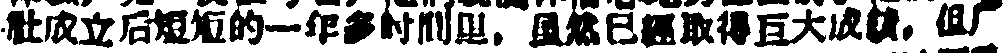社成立后短短的一年多时間里，虽然已經取得巨大成績，但广
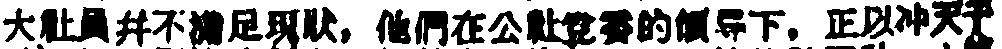大社員并不满足現状，他們在公社党委的領导下，正以冲天干
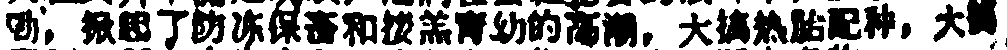勁，掀起了防冻保畜和接羔育幼的高潮，大搞热胎配种，大搞
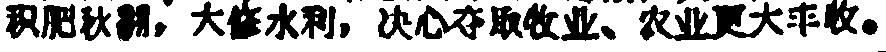积肥秋翻，大修水利，决心夺取牧业、农业更大丰收。
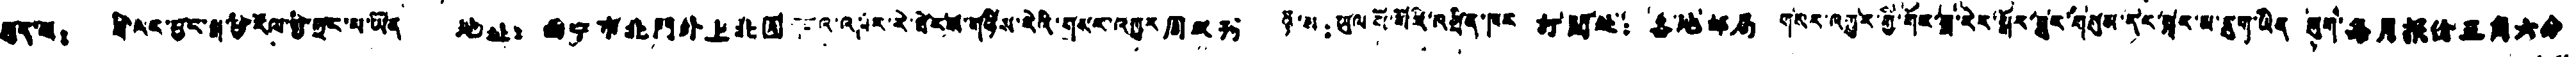ཕུད་ས： ཟི་ལིང་བྱང་སྒོ་ཕྱི་རལ་གྱི་ཧྲང་པེ་ཡོན 地址：西宁市北門外上北园 གཟའ་འཁོར་རེ་ཐེངས་གཉིས་རེའི་གསར་འགྱུར 周双刊 ཉོ་ས： ཡུལ་སོ་སོའི་འཕྲིན་ཁང 訂閱处： 各地邮局 གསར་འགྱུར་གྱི་གོང་ཟླ་རེར་སྒོར་ཟུར་གསུམ་དང་སྐར་དྲུག་ཡིན ཞུག་ 每月报价三角六分
